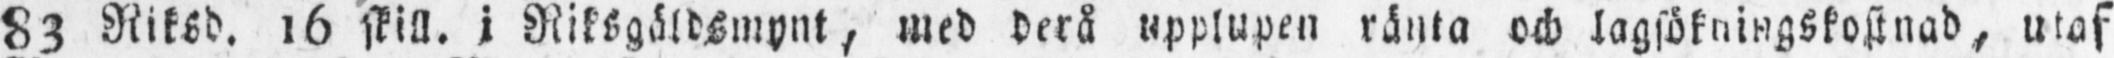83 Riksd. 16 skill. i Riksgäldsmynt, med derå upplupen ränta och lagsökningskostnad, utaf
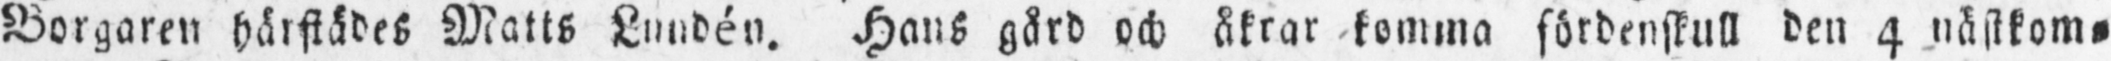Borgaren härstädes Matts Lundén. Hans gård och åkrar komma fördenskull den 4 nästkom-
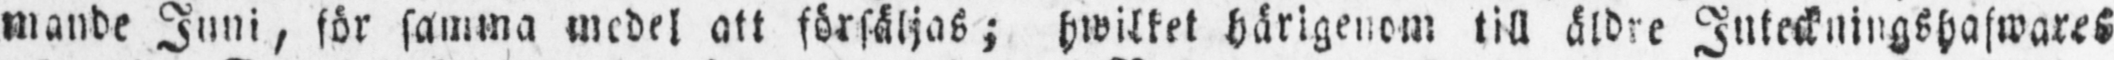mande Juni, för samma medel att försäljas; hwilket härigenom till äldre Inteckningshafwares
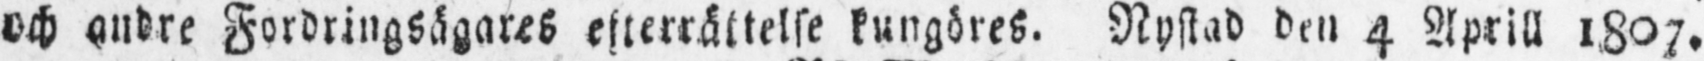och andre Fordringsägares efterrättelse kungöres. Nystad den 4 Aprill 1807.
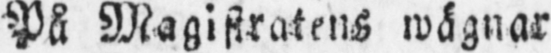På Magistratens wägnar
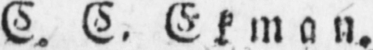C. C. Ekman.
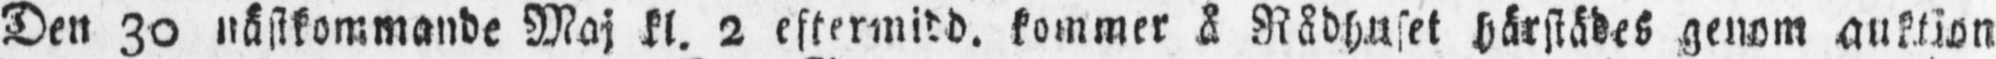Den 30 nästkommande Maj kl. 2 eftermidd. kommer å Rådhuset härstädes genom auktion
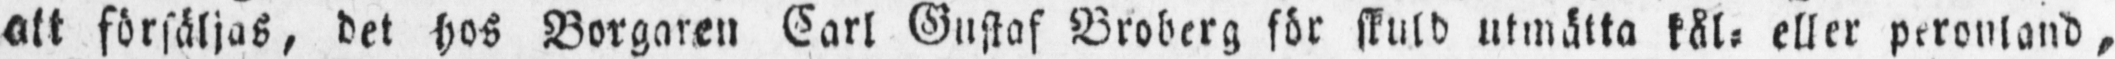att försäljas, det hos Borgaren Carl Gustaf Broberg för skuld utmätta kål- eller peronland,
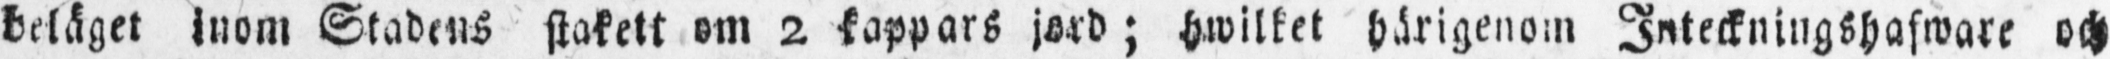beläget inom Stadens stakett om 2 kappars jord; hwilket härigenom Inteckningshafware och
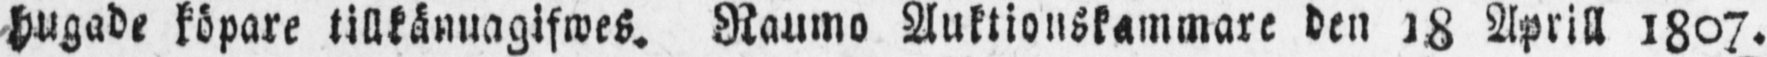hugade köpare tillkännagifwes. Raumo Auktionskammare den 18 Aprill 1807.
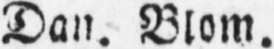Dan. Blom.
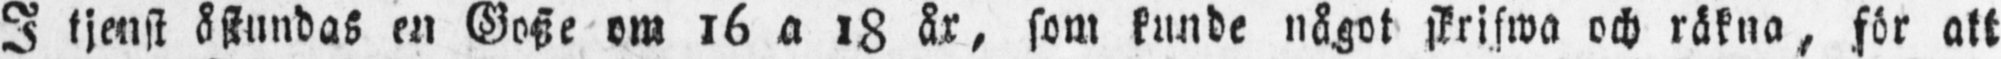I tjenst åstundas en Gosse om 16 a 18 år, som kunde något skrifwa och räkna, för att
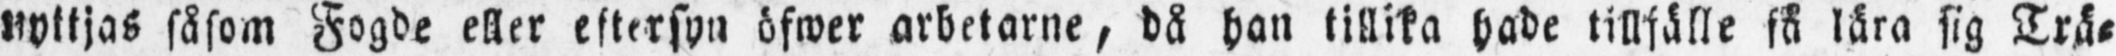nyttjas såsom Fogde eller eftersyn öfwer arbetarne, då han tillika hade tillfälle få lära sig Trä-
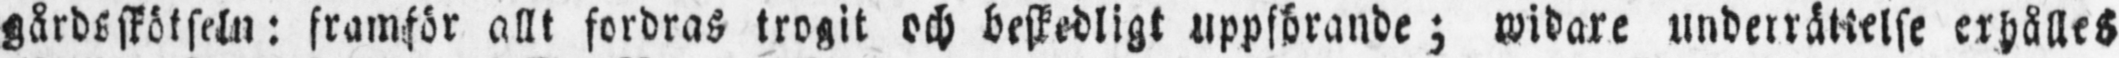gårdsskötseln: framför allt fordras trogit och beskedligt uppförande; widare underrättelse erhålles
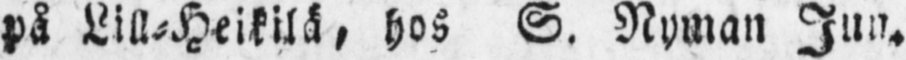på Lill-Heikilä, hos S. Nyman Jun.
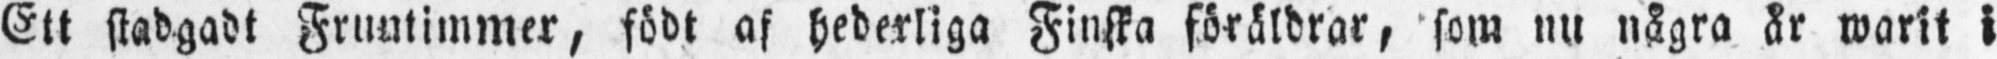Ett stadgadt Fruntimmer, födt af hederliga Finska föräldrar, som nu några år warit i
